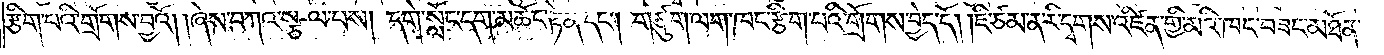རྩིག་པའི་གྲོགས་བྱའོ། །ཞེས་བཀའ་སྩལ་པས། དགེ་སློང་དག་མཆོད་རྟེན་དང༌། གཙུག་ལག་ཁང་རྩིག་པའི་གྲོགས་བྱེད་དོ། །ཇི་ཙམ་ན་རི་དྭགས་འཛིན་གྱི་མའི་ཁང་བཟང་མཐོན་
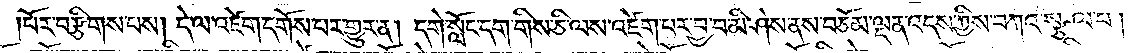པོར་བརྩིགས་པས། དེ་ལ་འཛེག་དགོས་པར་གྱུར་ན། དགེ་སློང་དག་གིས་ཅི་ལས་འཛེག་པར་བྱ་བ་མི་ཤེས་ནས་བཅོམ་ལྡན་འདས་ཀྱིས་བཀའ་སྩལ་པ།
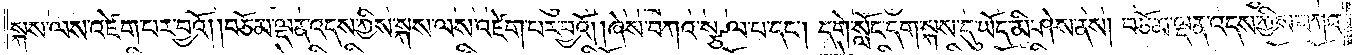སྐས་ལས་འཛེག་པར་བྱའོ། །བཅོམ་ལྡན་འདས་ཀྱིས་སྐས་ལས་འཛེག་པར་བྱའོ། ཞེས་བཀའ་སྩལ་པ་དང༌། དགེ་སློང་དག་སྐས་དུ་ཡོད་མི་ཤེས་ནས། བཅོམ་ལྡན་འདས་ཀྱིས་བཀའ་
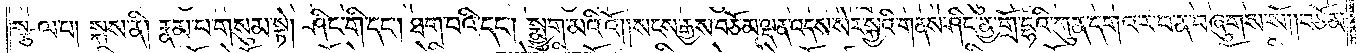སྩལ་པ། སྐས་ནི། རྣམ་པ་གསུམ་སྟེ། ཤིང་གི་དང༌། ཐག་པའི་དང༌། སྨྱུག་མའི་འོ། །སངས་རྒྱས་བཅོམ་ལྡན་འདས་སེར་སྐྱའི་གནས་ཤིང་ནྱ་གྲོ་དྷའི་ཀུན་དགའ་ར་བ་ན་བཞུགས་སོ། །བཅོམ་
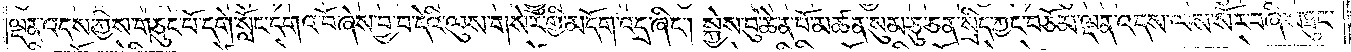ལྡན་འདས་ཀྱིས་གཅུང་པོ་དགེ་སློང་དགའ་བོ་ཞེས་བྱ་བ་དེའི་ལུས་གསེར་གྱི་མདོག་འདྲ་ཞིང༌། སྐྱེས་བུ་ཆེན་པོ་མཚན་སུམ་ཅུ་ཅན་སྲིད་ཀྱང་བཅོམ་ལྡན་འདས་ལས་སོར་བཞིས་ཐུང་
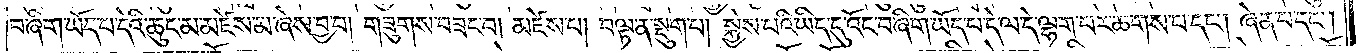བ་ཞིག་ཡོད་པ་དེའི་ཆུང་མ་མཛེས་མ་ཞེས་བྱ་བ། གཟུགས་བཟང་བ། མཛེས་པ། བལྟ་ན་སྡུག་པ། སྐྱེས་པའི་ཡིད་དུ་འོང་བ་ཞིག་ཡོད་པ་དེ་ལ་དེ་ལྷག་པར་ཆགས་པ་དང༌། ཞེན་པ་དང༌།
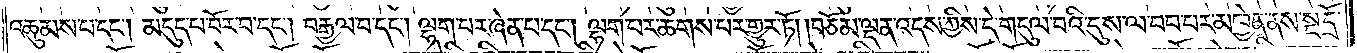འཆུམས་པ་དང༌། མདུད་པ་བོར་བ་དང༌། བརྒྱལ་བ་དང༌། ལྷག་པར་ཞེན་པ་དང༌། ལྷག་པར་ཆགས་པར་གྱུར་ཏོ། །བཅོམ་ལྡན་འདས་ཀྱིས་དེ་གདུལ་བའི་དུས་ལ་བབ་པར་མཁྱེན་ནས་སྔ་དྲོ་
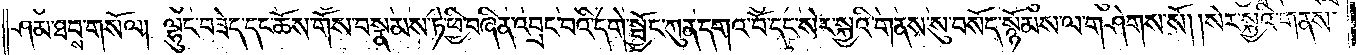ཤམ་ཐབས་གསོལ། ལྷུང་བཟེད་དང་ཆོས་གོས་བསྣམས་ཏེ་ཕྱི་བཞིན་འབྲང་བའི་དགེ་སྦྱོང་ཀུན་དགའ་བོ་དང་སེར་སྐྱའི་གནས་སུ་བསོད་སྙོམས་ལ་གཤེགས་སོ། །སེར་སྐྱའི་གནས་
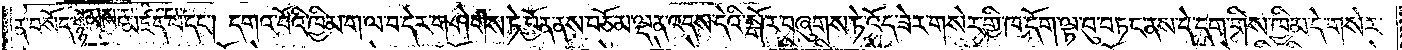ན་བསོད་སྙོམས་མཛད་པ་དང༌། དགའ་བོའི་ཁྱིམ་ག་ལ་བ་དེར་གཤེགས་ཏེ་བྱོན་ནས་བཅོམ་ལྡན་འདས་དེའི་སྒོར་བཞུགས་ཏེ་འོད་ཟེར་གསེར་གྱི་ཁ་དོག་ལྟ་བུ་བཏང་ནས་དེ་དག་གིས་ཁྱིམ་དེ་གསེར་
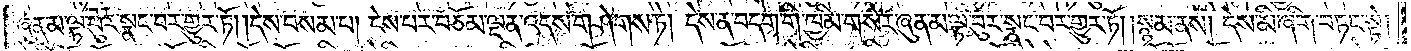ཞུན་མ་ལྟ་བུར་སྣང་བར་གྱུར་ཏོ། །དེས་བསམ་པ། ངེས་པར་བཅོམ་ལྡན་འདས་གཤེགས་ཏེ། དེས་ན་བདག་གི་ཁྱིམ་གསེར་ཞུན་མ་ལྟ་བུར་སྣང་བར་གྱུར་ཏོ། །སྙམ་ནས། དེས་མི་ཞིག་བཏང་སྟེ།
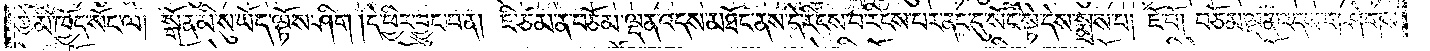ཀྱེ་མི་ཁྱོད་སོང་ལ། སྒོ་ན་མི་སུ་ཡོད་ལྟོས་ཤིག །དེ་ཕྱིར་བྱུང་བ་ན། ཇི་ཙམ་ན་བཅོམ་ལྡན་འདས་མཐོང་ནས་དེ་རིངས་པ་རིངས་པར་ནང་དུ་སོང་སྟེ་དེས་སྨྲས་པ། ཇོ་བོ། བཅོམ་ལྡན་འདས་གཤེགས་
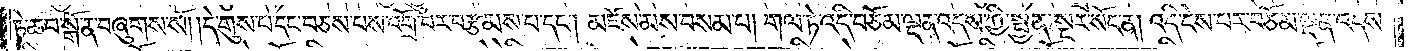ཏེ་ཆབ་སྒོ་ན་བཞུགས་སོ། །དེ་གུས་པ་དང་བཅས་པས་འགྲོ་བར་བརྩམས་པ་དང༌། མཛེས་མས་བསམ་པ། གལ་ཏེ་འདི་བཅོམ་ལྡན་འདས་ཀྱི་སྤྱན་སྔར་སོང་ན། འདི་ངེས་པར་བཅོམ་ལྡན་འདས་
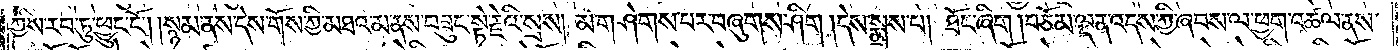ཀྱིས་རབ་ཏུ་ཕྱུང་ངོ༌། །སྙམ་ནས་དེས་གོས་ཀྱི་མཐའ་མ་ནས་བཟུང་སྟེ་རྗེའི་སྲས། མ་གཤེགས་པར་བཞུགས་ཤིག །དེས་སྨྲས་པ། ཐོང་ཞིག །བཅོམ་ལྡན་འདས་ཀྱི་ཞབས་ལ་ཕྱག་འཚལ་ནས་
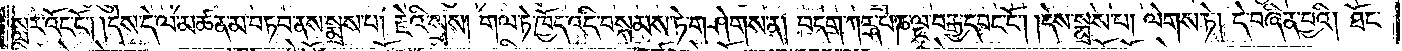སླར་འོང་ངོ༌། །དེས་དེ་ལ་མཚན་མ་བཏབ་ནས་སྨྲས་པ། རྗེའི་སྲས། གལ་ཏེ་ཁྱོད་འདི་བསྐམས་ཏེ་གཤེགས་ན། བདག་ཀཪྴ་པ་ཎ་ལྔ་བརྒྱ་དབང་ངོ༌། །དེས་སྨྲས་པ། ལེགས་ཏེ། དེ་བཞིན་བྱའི། ཐོང་
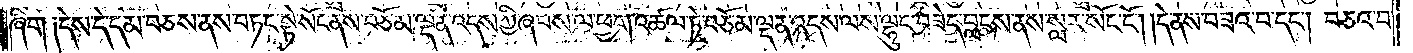ཞིག ༑དེས་དེ་དམ་བཅས་ནས་བཏང་སྟེ་སོང་ནས་བཅོམ་ལྡན་འདས་ཀྱི་ཞབས་ལ་ཕྱག་འཚལ་ཏེ་བཅོམ་ལྡན་འདས་ལས་ལྷུང་བཟེད་བླངས་ནས་སླར་སོང་ངོ༌། །དེ་ནས་བཟའ་བ་དང༌། བཅའ་བ་
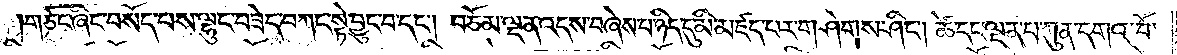གཙང་ཞིང་བསོད་པས་ལྷུང་བཟེད་བཀང་སྟེ་བྱུང་བ་དང༌། བཅོམ་ལྡན་འདས་བཞེས་པ་ཉིད་དུ་མི་མཛད་པར་གཤེགས་ཤིང༌། ཚེ་དང་ལྡན་པ་ཀུན་དགའ་བོ་
